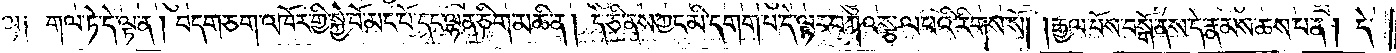ལྷ༑ གལ་ཏེ་དེ་ལྟ་ན། བདག་ཅག་འཁོར་གྱི་སྐྱེ་བོ་མང་པོ་དང་ལྷན་ཅིག་མཆི་ན། དེ་ཅི་ནས་ཀྱང་མི་དགག་པ་དེ་ལྟར་བཀའ་སྩལ་པའི་རིགས་སོ། །རྒྱལ་པོས་བསྒོ་ནས་དེ་རྣམས་ཆས་པ་ན། དེ་
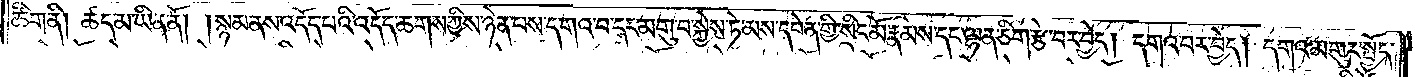ཚིག་ནི། ཚད་མ་ཡིན་ནོ། །སྙམ་ནས་འདོད་པའི་འདོད་ཆགས་ཀྱིས་ཉེན་པས་དགའ་བ་དང་མགུ་བ་སྐྱེས་ཏེ་མས་དབེན་གྱི་སྲིང་མོ་རྣམས་དང་ལྷན་ཅིག་རྩེ་བར་བྱེད། དགའ་བར་བྱེད། དགའ་མགུར་སྤྱོད་
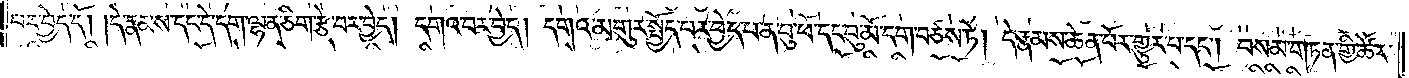པར་བྱེད་དོ། །དེ་རྣམས་དང་དེ་དག་ལྷན་ཅིག་རྩེ་བར་བྱེད། དགའ་བར་བྱེད། དགའ་མགུར་སྤྱོད་པར་བྱེད་པ་ན་བུ་ཕོ་དང་བུ་མོ་དག་བཙས་ཏེ། དེ་རྣམས་ཆེན་པོར་གྱུར་པ་དང༌། བསམ་གཏན་གྱི་ཚེར་
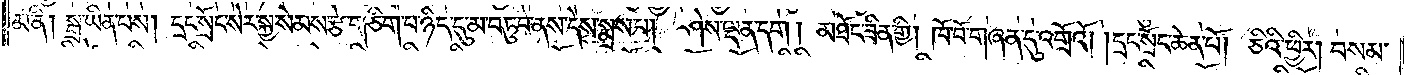མ་ནི། སྒྲ་ཡིན་པས། དྲང་སྲོང་སེར་སྐྱ་སེམས་རྩེ་གཅིག་པ་ཉིད་དུ་མ་བཏུབ་ནས་དེས་སྨྲས་པ། ཤེས་ལྡན་དག །མཐོང་ཟིན་གྱི། ཁོ་བོ་གཞན་དུ་འགྲོའོ། །དྲང་སྲོང་ཆེན་པོ། ཅིའི་ཕྱིར། བསམ་
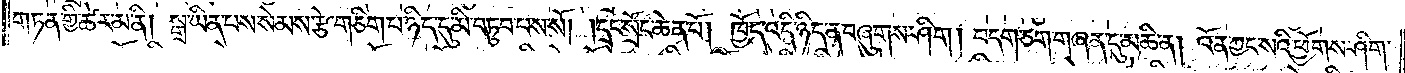གཏན་གྱི་ཚེར་མ་ནི། སྒྲ་ཡིན་པས་སེམས་རྩེ་གཅིག་པ་ཉིད་དུ་མི་བཏུབ་པས་སོ། །དྲང་སྲོང་ཆེན་པོ། ཁྱོད་འདི་ཉིད་ན་བཞུགས་ཤིག །བདག་ཅག་གཞན་དུ་མཆི་ན། འོན་ཀྱང་སའི་ཕྱོགས་ཤིག་
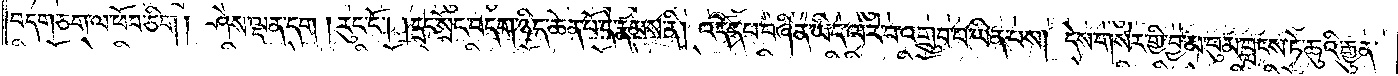བདག་ཅག་ལ་ཕོབ་ཅིག །ཤེས་ལྡན་དག །རུང་ངོ༌། །དྲང་སྲོང་བདག་ཉིད་ཆེན་པོ་རྣམས་ནི། འདོད་པ་བཞིན་ཡིད་ལ་རེ་བ་འགྲུབ་པ་ཡིན་པས། དེས་གསེར་གྱི་བྱ་མ་བུམ་བླངས་ཏེ་ཆུའི་རྒྱུན་
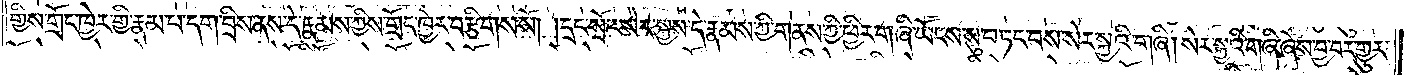གྱིས་གྲོང་ཁྱེར་གྱི་རྣམ་པ་དག་བྲིས་ནས་དེ་རྣམས་ཀྱིས་གྲོང་ཁྱེར་བརྩིགས་སོ། །དྲང་སྲོང་སེར་སྐྱས་དེ་རྣམས་ཀྱི་གནས་ཀྱི་ཕྱིར་གཞི་ཡོངས་སུ་བཏང་ངས་སེར་སྐྱའི་གཞི། སེར་སྐྱའི་གཞི་ཞེས་བྱ་བར་གྱུར་
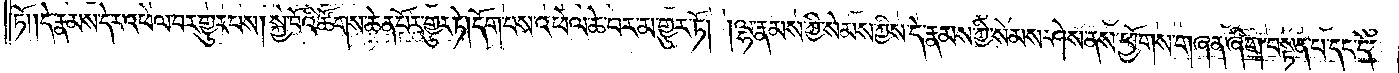ཏོ། །དེ་རྣམས་དེར་འཕེལ་བར་གྱུར་པས། སྐྱེ་བོའི་ཚོགས་ཆེན་པོར་གྱུར་ཏེ། དོག་པས་འཕེལ་ཆེ་བར་མ་གྱུར་ཏོ། །ལྷ་རྣམས་ཀྱི་སེམས་ཀྱིས་དེ་རྣམས་ཀྱི་སེམས་ཤེས་ནས་ཕྱོགས་གཞན་ཞིག་བསྟན་པ་དང་དེ་
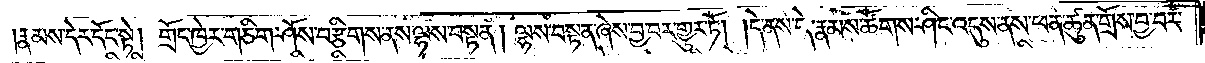།རྣམས་དེར་དོང་སྟེ། གྲོང་ཁྱེར་གཅིག་ཤོས་བརྩིགས་ནས་ལྷས་བསྟན། ལྷས་བསྟན་ཞེས་བྱ་བར་གྱུར་ཏོ། །དེ་ནས་དེ་རྣམས་ཚོགས་ཤིང་འདུས་ནས་ཕན་ཚུན་གྲོས་བྱ་བར་
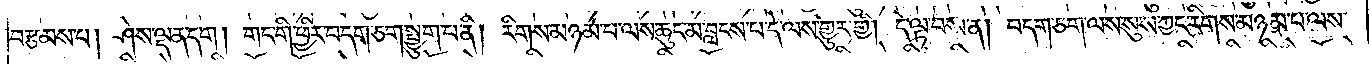བརྩམས་པ། ཤེས་ལྡན་དག །གང་གི་ཕྱིར་བདག་ཅག་སྤྱུག་པ་ནི། རིགས་མཉམ་པ་ལས་ཆུང་མ་བླངས་པ་དེ་ལས་གྱུར་གྱི། དེ་ལྟ་བས་ན། བདག་ཅག་ལས་སུས་ཀྱང་རིགས་མཉམ་པ་ལས་
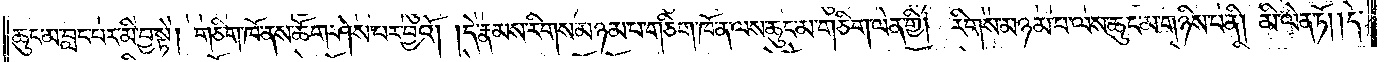ཆུང་མ་བླང་པར་མི་བྱ་སྟེ། གཅིག་ཁོ་ནས་ཆོག་ཤེས་པར་བྱའོ། །དེ་རྣམས་རིགས་མཉམ་པ་གཅིག་ཁོ་ན་ལས་ཆུང་མ་གཅིག་ལེན་གྱི། རིགས་མཉམ་པ་ལས་ཆུང་མ་གཉིས་པ་ནི། མི་ལེན་ཏོ། །དེ་
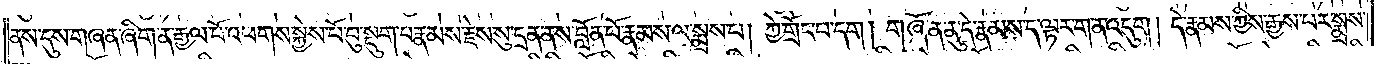ནས་དུས་གཞན་ཞིག་ན་རྒྱལ་པོ་འཕགས་སྐྱེས་པོ་བུ་སྡུག་པ་རྣམས་རྗེས་སུ་དྲན་ནས་བློན་པོ་རྣམས་ལ་སྨྲས་པ། ཀྱེ་གྲོང་པ་དག །གཞོན་ནུ་དེ་རྣམས་ད་ལྟར་ག་ན་འདུག །དེ་རྣམས་ཀྱིས་རྒྱས་པར་སྨྲས་
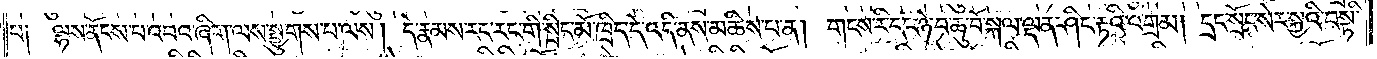པ། ལྷས་ནོངས་པ་འབའ་ཞིག་ལས་སྤྱུགས་པ་ལས། དེ་རྣམས་རང་རང་གི་སྲིང་མོ་ཁྲིད་དེ་འདི་ནས་མཆིས་པ་ན། གངས་རི་དང་ཉེ་བ་ཆུ་བོ་སྐལ་ལྡན་ཤིང་རྟའི་འགྲམ། དྲང་སྲོང་སེར་སྐྱའི་བསྟི་
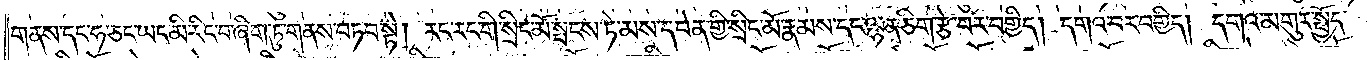གནས་དང་ཧ་ཅང་ཡང་མི་རིང་བ་ཞིག་ཏུ་གནས་བཏབ་སྟེ། རང་རང་གི་སྲིང་མོ་སྤངས་ཏེ་མས་དབེན་གྱི་སྲིང་མོ་རྣམས་དང་ལྷན་ཅིག་རྩེ་བར་བགྱིད། དགའ་བར་བགྱིད། དགའ་མགུར་སྤྱོད་
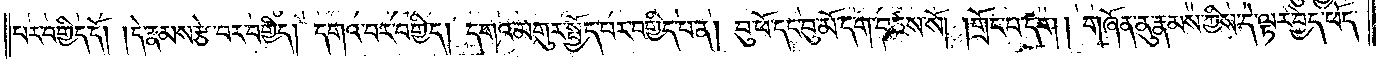པར་བགྱིད་དོ། །དེ་རྣམས་རྩེ་བར་བགྱིད། དགའ་བར་བགྱིད། དགའ་མགུར་སྤྱོད་པར་བགྱིད་པ་ན། བུ་ཕོ་དང་བུ་མོ་དག་བཙས་སོ། །གྲོང་པ་དག །གཞོན་ནུ་རྣམས་ཀྱིས་དེ་ལྟར་བྱེད་ཕོད་
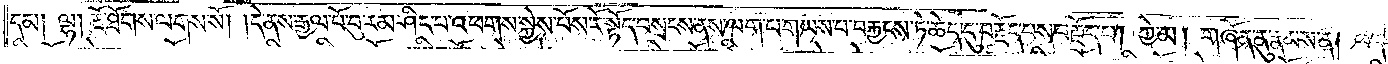དམ། ལྷ། རྔོ་ཐོགས་ལགས་སོ། །དེ་ནས་རྒྱལ་པོ་བུ་རམ་ཤིང་པ་འཕགས་སྐྱེས་པོས་རོ་སྟོད་བསྲངས་ནས་ལག་པ་གཡས་པ་བརྐྱངས་ཏེ་ཆེད་དུ་བརྗོད་པས་བརྗོད་པ། ཀྱེ་མ། གཞོན་ནུ་རྣམས་ནི། ཕོད་པ་
